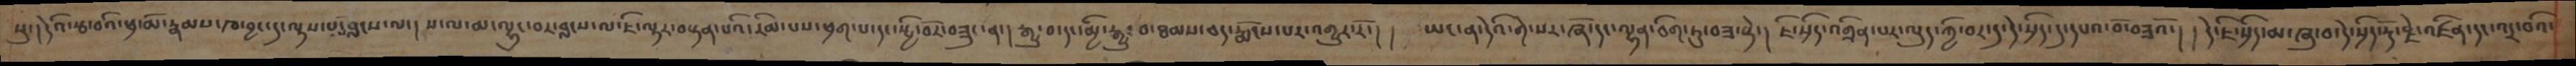སུ་།དེའི་རྩ་བའི་ཕྲ་མོ་རྣམས་ཁ་བྱང་དུ་ལྟས་པས་བླངས་ལ་།ས་ལ་མ་ལྷུང་བར་བླངས་ལ་ཇི་ལྟར་བསྟན་པའི་རིམ་པས་ཕྲག་པ་དང་སྤྱི་བོར་བཟུང་ན་།རྒྱུ་བ་དང་མྱི་རྒྱུ་བ་ཐམས་ཅད་རྨོངས་པར་འགྱུར་རོ་། །ཡང་ན་དེའི་གེ་སར་ཞོ་དང་ལྷན་ཅིག་ཏུ་བཟ་སྟེ་། ཇི་སྲིད་འགྲིན་པར་ལུད་ཀྱི་བར་དུ་དེ་སྲིད་དུ་དཔའ་བོ་བཟའོ་། །དེ་ཇི་སྲིད་མ་ཞུ་བ་དེ་སྲིད་རྡོ་རྗེ་འཛིན་དང་འདྲ་བའི་
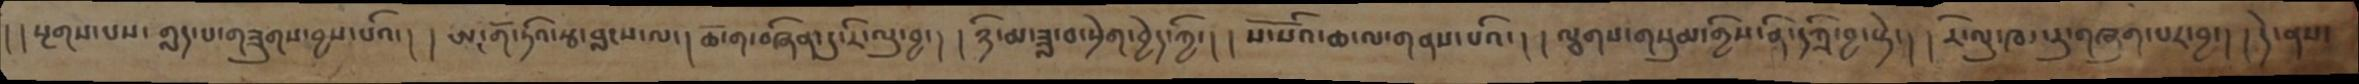།།སྔགས་པས་གླད་པ་གཟུགས་བྱས་པའི་། །ཨང་གོ་ཏའི་རྩ་བླངས་ལ་། ཆོ་ག་བཞིན་དུ་རི་ལུ་བྱ་། །ཉི་མ་ཟླ་བ་སྲེག་བྱེད་ཀྱི་། །སོ་སོའི་ཆ་ལ་གནས་པའི་། །ལྕགས་གསུམ་གྱིས་ནི་དཀྲི་བྱ་སྟེ་། །རི་ལུ་ཁར་རུ་གཞག་པར་བྱ་། །དེ་ནས་
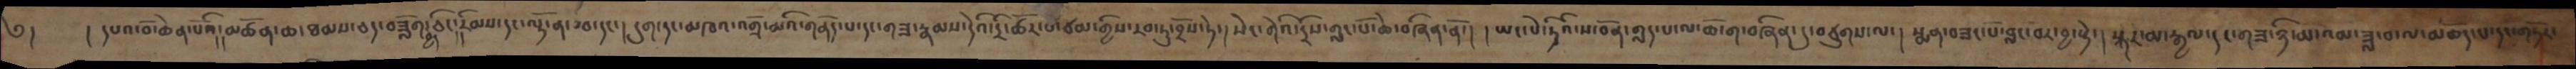༄།  །དཔའ་བོ་ཆེན་པོ་ནི།མཚན་ཆ་ཐམས་ཅད་བཟློག་བྱེད་ཅིང་།།རིམས་དང་ལྟོ་ན་ཟབ་དང་། དུག་དང་མཁའ་འགྲོ་མའི་གནོད་པ་དང་གཟ་རྣམས་དེའི་དྲི་ཚོར་པ་ཙམ་གྱིས་རབ་ཏུ་བྲོས་ཏེ་།སེང་གེའི་དྲིས་གླང་པོ་ཆེ་བཞིན་ནོ་། །ཡང་པེ་ཏིའི་ས་བོན་གླད་པ་ལ་ཆོ་ག་བཞིན་དུ་བཙུགས་ལ་།སྨན་བཟང་པོ་བླང་བར་བྱ་སྟེ་།སྐར་མ་རྒྱལ་དང་གཟ་ཉི་མ་འམ་ཟླ་བ་ལ་མཆོད་པ་དང་གཏོར་
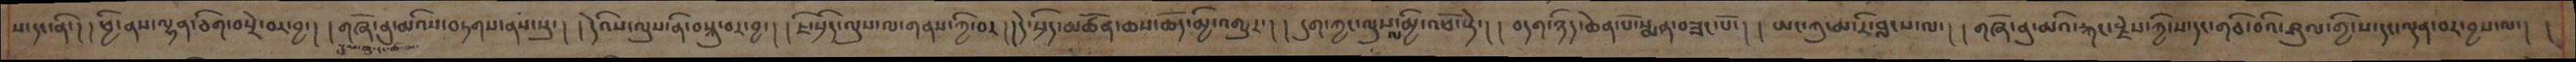ས་དང་ནི་། །ཕྱི་ནས་ལྷན་ཅིག་བསྲེ་བར་བྱ་། །གཞོ་ནུ་མའིས་བཏགས་ནས་སུ་། །དེའི་ལུས་ནི་བསྡུ་བར་བྱ་། །ཇི་སྲིད་ལུས་ལ་གནས་ཀྱི་བར་། །དེ་སྲིད་མཚོན་ཆས་ཆོད་མྱི་འགྱུར་། །དུག་ཀྱང་ལུས་ལ་མྱི་འཕོ་སྟེ་། །བདག་ཉིད་ཆེན་པོ་སྨན་བཟང་པོ་། །ཡང་ཀུ་མ་རི་བླངས་པ་ལ་། །གཞོ་ནུ་མའི་རྐང་རྗེས་ཀྱི་ས་དང་གཅི་བའི་ཤུལ་གྱི་ས་དང་ལྡན་བར་བྱས་ལ་། །
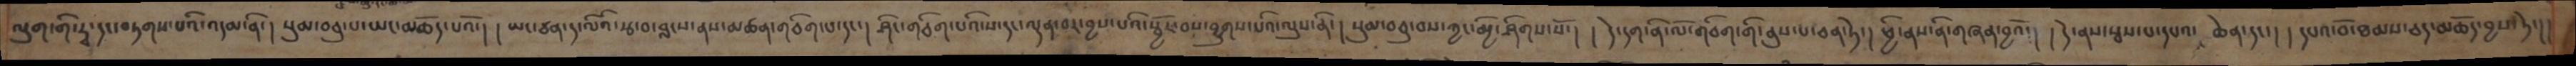ལུག་གི་རྭ་དང་བཏགས་པའི་འདམ་ནི་། སུམ་བཅུ་པ་ཡང་མཆོད་པའོ་། །ཡང་ཙན་ད་ལིའི་རྩ་བ་བླངས་ནས་མཚན་གཅིག་པ་དང་། ཤིང་གཅིག་པའི་ས་དང་ལྡན་བར་བྱས་པའི་སྦྱོར་བས་བྱུགས་པའི་ལུས་ནི་། སུམ་བཅུ་བས་ཀྱང་མྱི་ཤིགས་སོ་། །དེ་དག་ནི་ལོ་གཅིག་གི་ནུས་པ་ཅན་ཏེ་། ཕྱི་ནས་ནི་གཞན་བྱའོ་། །དེ་ནས་སྦས་པ་དཔའ་ཆེན་དང་། །དཔའ་བོ་ཐམས་ཅད་མཆོད་བྱས་ཏེ་།།
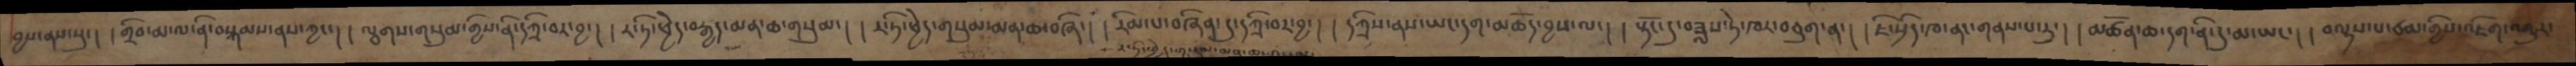བྱས་ནས་སུ་། །གྲིབ་མ་ལ་ནི་བསྐམས་ནས་ཀྱང་། །ལྕགས་གསུམ་གྱིས་ནི་དཀྲི་བར་བྱ་། །ར་ཏི་ཕྱེད་བརྒྱད་མན་ཆ་གསུམ་། །ར་ཏི་ཕྱེད་གསུམ་མན་ཆ་བཞི་། །རིམ་པ་བཞིན་དུ་དཀྲི་བར་བྱ་། །དཀྲིས་ནས་ཡང་དག་མཆོད་བྱས་ལ་། །སྟོང་དུ་བཟླས་ཏེ་ཁར་བཅུག་ན་། །ཇི་སྲིད་ཁ་ནང་གནས་པ་རུ་། །མཚོན་ཆ་དག་ནི་དུ་མ་ཡང་། །བལྟས་པ་ཙམ་གྱིས་འཇིག་འགྱུར་
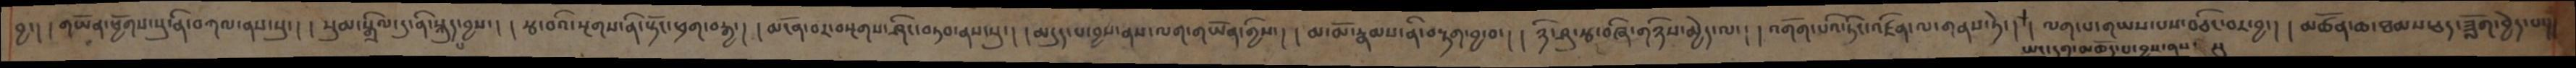བྱ་། །གཡོན་ཕྱོགས་སུ་ནི་བཀལ་ནས་སུ་། །སུམ་སྒྲིལ་དུ་ནི་སྐུད་པ་བྱས་། །རྩ་བའི་སྔགས་ནི་སྟོང་ཕྲག་བརྒྱ་། །མངོན་བར་བསྔགས་ཤིང་བཏབ་ནས་སུ་། །མདུད་པ་བྱས་ནས་ལག་གཡོན་གྱིས་། །མ་མོ་རྣམས་ནི་བརྟག་བྱ་བ་། །ཉི་ཤུ་རྩ་བཞི་གཉིས་མྱེད་ལ་། །འགོག་པའི་ཏིང་འཛིན་ལ་གནས་ཏེ་། །ཡང་དག་མཆོད་པ་བྱས་ནས་སུ་། །ལག་པ་གཡས་པས་བཅིང་བར་བྱ་། །མཚོན་ཆ་ཐམས་ཅད་ཟློག་བྱེད་པ་།།
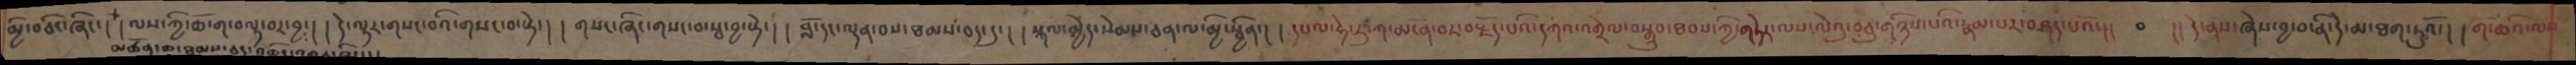མྱི་བཅིང་ཞིང་། མཚོན་ཆ་ཐམས་ཅད་མཆོད་འགྱུར་མྱི་། །ལས་ཀྱི་ཆོ་ག་བལྟ་བར་བྱ་། །དེ་ལྟར་གསང་བའི་གསང་བ་སྟེ་། །གསང་ཞིང་གསང་བ་སྦ་བྱ་སྟེ་། །བློ་དང་ལྡན་བས་ཐམས་ཅད་དུ་། །སྐལ་མྱེད་སེམས་ཅན་ལ་མྱི་སྦྱིན་། །དཔལ་ཧེ་རུ་ཀ་མངོན་བར་བརྗོད་པའི་དཀའ་འགྲེལ་བསྒྲུབ་ཐབས་ཀྱི་གཏེར་ལས་ལེའུ་བཅུ་གཉིས་པའི་རྣམ་པར་བཤད་པའོ་།།  །།དེ་ནས་ཞེས་བྱ་བ་ནི་དེ་མ་ཐག་ཏུའོ་། །གོ་ཆའི་ལས
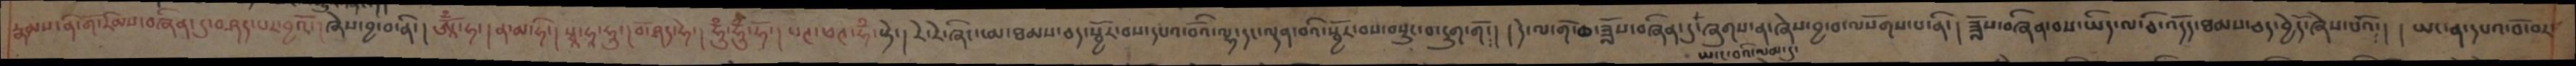རྣམས་ནི་གོ་རིམས་བཞིན་དུ་བཤད་པར་བྱའོ་། ཞེས་བྱ་བ་ནི་། ཨཱོྃ་ཧ་། ན་མ་ཧི་། སྭཱ་ཧཱ་ཧཱུ་། བོ་ཤད་ཧེ་། ཧཱུྃ་ཧཱུྃ་ཧོ་། ཕཊ་ཕཊ་ཧྃ་སྟེ་། རེ་རེ་ཞིང་མ་ཐམས་ཅད་སྦྱོར་བས་དཔའ་བོའི་ལྷ་དང་ལྡན་བའི་སྦྱོར་བས་བསྲུང་བ་དྲུག་གོ། །དེ་ལ་གོ་ཆ་བཟློས་བཞིན་དུ་ཡ་ང་བའི་ལམ་དུ་ཞུགས་ན་ཞེས་བྱ་བ་ལསོགས་པ་ནི་། ཟློས་བཞིན་བས་ཡིད་ལ་ཅི་འདོད་ཐམས་ཅད་བྱེདོ་ཞེས་པའོ་། །ཡང་ན་དཔའ་བོ་བར་
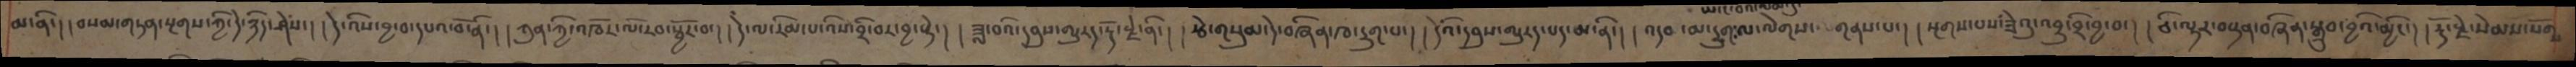མ་ནི་། །བསམ་གཏན་སྔགས་ཀྱི་དེ་ཉིད་ཤེས་། །དེ་འིས་བྱ་བ་དཔའ་བོ་ནི་། །ཀུན་ཀྱི་འཁོར་ལོ་རབ་སྦྱོར་བ་། །དེ་ལ་རིམ་པ་འིས་བྲི་བར་བྱ་སྟེ་། །ཟླ་བའི་དབུས་གྱུརད་རྡོ་རྗེ་ནི་། །རྩེ་གསུམ་དེ་བཞིན་ཁ་དྲུག་པ་། །དེའི་དབུས་གྱུརད་པད་མ་ནི་། །འདབ་མ་དྲུག་ལ་ལེགས་གནས་པ་། །སྔགས་པས་ཟེའུ་འབྲུ་བྲི་བྱ་བ་། །ཅི་ལྟར་བསྟན་བཞིན་སྒྲུབ་བྱའི་མྱིང་། །རྡོ་རྗེ་སེམས་སོགས་
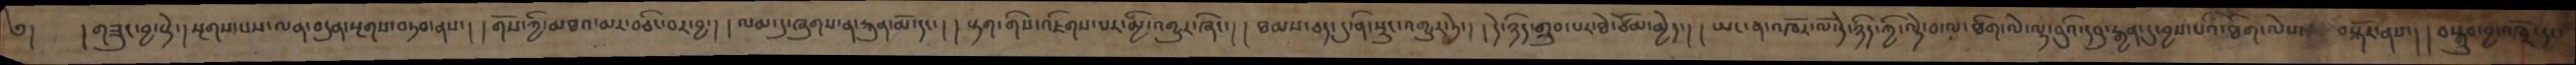༄། །གཟུང་བྱ་སྟེ་། སྔགས་པས་ལན་བདུན་སྔགས་བཏབ་ནས་། །གོས་ཀྱི་མཐའ་མར་བཅིང་བར་བྱ་། །ལམ་དུ་ཞུགས་ན་རྐུན་མོ་དང་། །སྟག་གིས་འཇིགས་པར་མྱི་འགྱུར་ཞིང་། །ཐམས་ཅད་དུ་ནི་སྲུང་འགྱུར་ཏེ་། །དེ་ཉིད་གྲུབ་པར་ཐེ་ཙོམ་མྱེད་། །ཡང་ན་འཁོར་ལོ་དེ་ཉིད་ཀྱི་ལྟེ་བ་ལ་ཐིག་ལེ་ལྟ་བུའི་དབུ་རྒྱན་དུ་བྱས་པའི་ཐིག་ལེས་ བསྐོར་ནས་། །བསྒྲུབ་བྱ་འཁྲོ་དང་
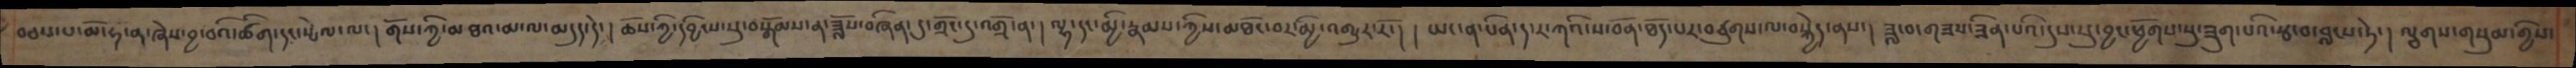བཅས་པ་མོ་ཧ་ན་ཞེས་བྱ་བའི་ཚིག་དང་སྤེལ་ལ་། གོས་ཀྱི་མཐའ་མ་ལ་མདུད་དེ་། ཆོས་ཀྱི་དབྱིངས་སུ་བསྒོམས་ན་ཟློས་བཞིན་དུ་གྲོང་དུ་འགྲོ་ན་།ལྷ་དང་མྱི་རྣམས་ཀྱིས་མཐོང་བར་མྱི་འགྱུར་རོ་། །ཡང་ན་སིན་ད་ར་ཀའི་ས་བོན་ཐོད་པར་འཙུགས་ལ་བསྐྱེད་ནས་། ཟླ་བ་གཟས་ཟིན་པའི་དུས་སུ་བྱང་ཕྱོགས་སུ་ཟུག་པའི་རྩ་བ་བླངས་ཏེ། ལྕགས་གསུམ་གྱིས་
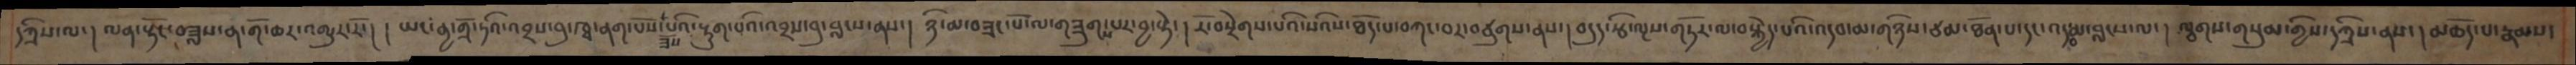དཀྲིས་ལ་། ལན་སྟོང་བཟླས་ན་གོ་ཆར་འགྱུར་རོ་། །ཡང་ནྱ་གྲོ་ཏའི་འབྲས་བུ་ཁྭ་ནག་པོས་ཟོས་པའི་རྟུག་པའི་འབྲས་བུ་བླངས་ནས་། ཉི་མ་བཟང་པོ་ལ་གཟུགས་པར་བྱ་སྟེ་། རོ་བསྲེགས་པའི་སའིས་ཐོད་པ་བཀང་བར་བཙུགས་ནས་། བདུད་རྩི་ལྔས་གཏོར་མ་བསྐྱེད་པའི་འདབ་མ་གཉིས་ཙམ་ཐོན་པ་དང་འདབ་མ་བླངས་ལ་། ལྕགས་གསུམ་གྱིས་དཀྲིས་ནས་། མཆོད་པ་རྣམས་
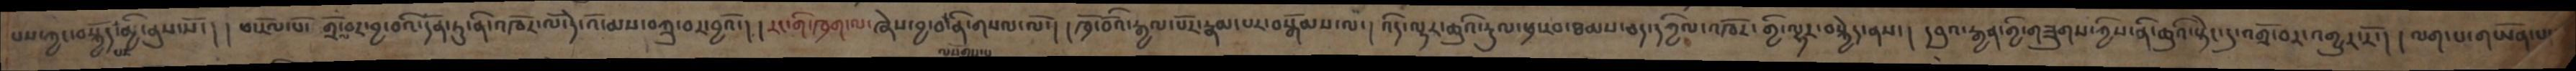པས་ཀྱང་བསྐྱོད་མྱི་ནུས་སོ་། །ཕ་རོལ་པོ་གྲོལ་བར་བྱ་བའི་དོན་ཏུ་ནི་འཁོར་ལོ་དེ་འོ་མས་བཀྲུ་བར་བྱའོ་། །རང་གི་ཁྲག་ལ་ཞེས་བྱ་བ་ནི་གསལ་ལོ་། །ཁྲོ་བོའི་རྒྱལ་པོར་རྣམ་པར་བསྒོམས་ལ་། འདི་ལྟར་ཆུའི་རྡུལ་ཕྲ་རབ་ཐམས་ཅད་དཀྱིལ་འཁོར་གྱི་ལྷར་བསྐྱེད་ནས་། དབུ་རྒྱན་གྱི་གཟུགས་ཀྱིས་ནི་ཆུའི་སྟེང་དུ་འགྲོ་བར་འགྱུར་རོ་། ལག་པ་གཡོན་པ་
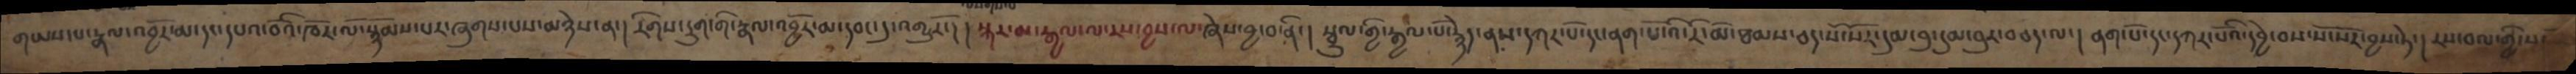གཡས་པ་རྣལ་འབྱོར་མ་དང་དཔའ་བོའི་ཁོར་ལོ་སྙོམས་པར་ཞུགས་པས་མཉེས་ན་། རིགས་དྲུག་གི་རྣལ་འབྱོར་མ་དབང་དུ་འགྱུརོ་། །སྐར་མ་རྒྱལ་ལ་རས་བྱས་ལ་ཞེས་བྱ་བ་ནི་། སྦྲུལ་གྱི་རྒྱལ་པོ་རྙེད་ནས་དཀར་པོ་དང་ནག་པོ་འི་རི་མོ་ཐམས་ཅད་སོ་སོར་དུམ་བུ་དུམ་བུར་བཅད་ལ་། ནག་པོ་དང་དཀར་པོའི་དབྱེ་བས་སོ་སོར་བྱས་ཏེ་། རས་བལ་གྱི་ས་
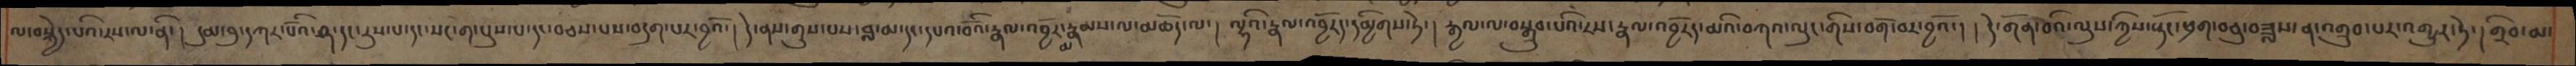ལ་བསྐྱེད་པའི་རས་ལ་ནི་། དུམ་བུ་དཀར་པོའི་ཤ་དང་རུས་པ་དང་སང་ག་པུས་པ་དང་བཅས་པས་བདུག་པར་བྱའོ་། དེ་ནས་གུས་པས་བླ་མ་དང་དཔའ་བོའི་རྣལ་འབྱོར་མ་རྣམས་ལ་མཆོད་ལ་། ལྷའི་རྣལ་འབྱོརད་དམྱིགས་ཏེ་། རྒྱལ་ལ་བསྒྲུབ་པའི་རས་རྣལ་འབྱོརད་མའི་བཀའ་ལུང་གིས་བགོ་བར་བྱའོ་། །དེ་གོན་པའི་ལུས་ཀྱིས་སྟོང་ཕྲག་བཅུ་བཟླས་ན་འགྲུབ་པར་འགྱུར་ཏེ་། གྲིབ་མ་
